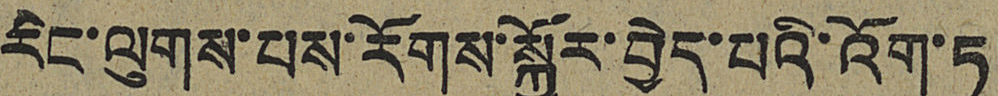རིང་ལུས་པས་རོགས་སྐྱོར་བྱེད་པའི་འོག་ཏུ།
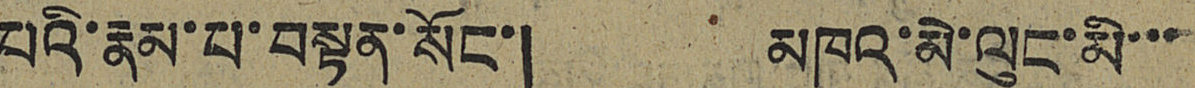པའི་རྣམ་པ་བསྟན་སོང་། མཁའ་མེ་ལུང་མི་་་
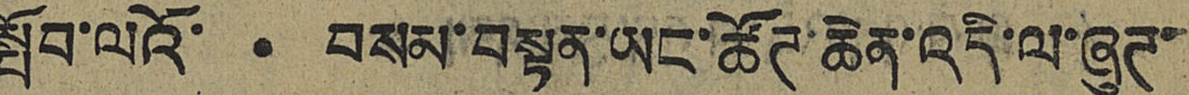སྤོབ་ལའོ་ . བསམ་བསྟན་ཡང་ཚོཊ་ཆེན་འདི་ལ་ཞུཊ་
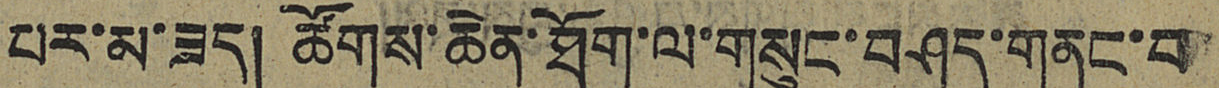པར་མ་ཟད། ཚོགས་ཆེན་ཐོག་ལ་གསུང་བཤད་གནང་བ
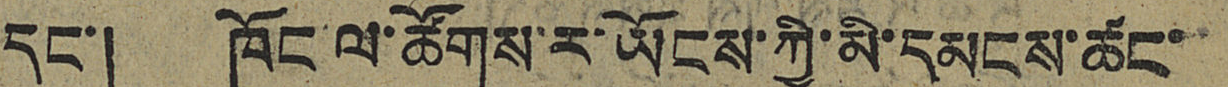དང་། ཁོང་ལ་ཚོགས་ར་ཡོངས་ཀྱི་མི་དམངས་ཚང་
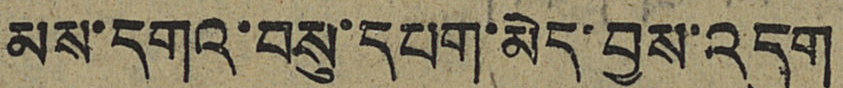མས་དགའ་བསུ་དཔག་མེད་བྱས་འདུག
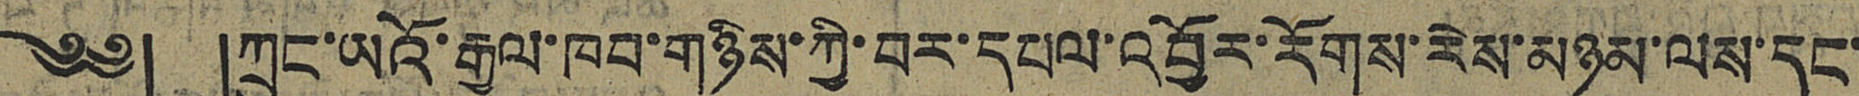༄༅། །ཀྲུང་ཡའོ་རྒྱལ་ཁབ་གཉིས་ཀྱི་བར་དཔལ་འབྱོར་རོགས་རེས་མཉམ་ལས་དང་
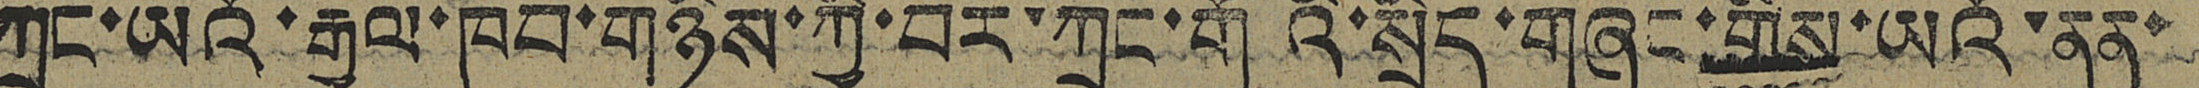ཀྲུང་ཡའོ་རྒྱལ་ཁབ་གཉིས་ཀྱི་བར་ཀྲུང་གོའི་སྲིད་གཞུང་གིས་ཡའོ་ནན་
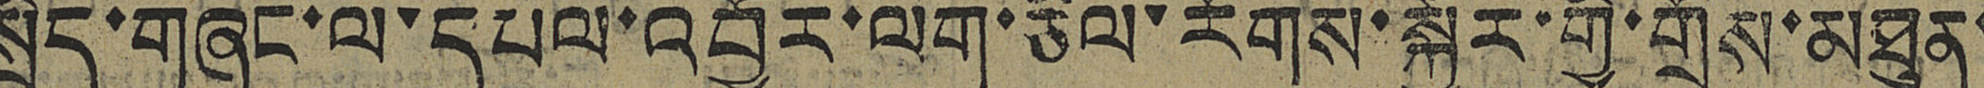སྲིད་གཞུང་ལ་དཔལ་འབྱོར་ལག་རྩལ་རོགས་སྐྱོར་གྱི་གྲོས་མཐུན་
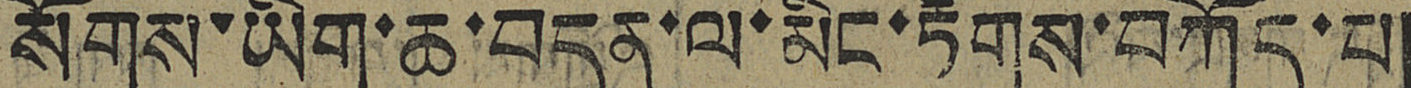སོགས་ཡིག་ཆ་བདུན་ལ་མིང་རྟགས་བཀོད་པ།
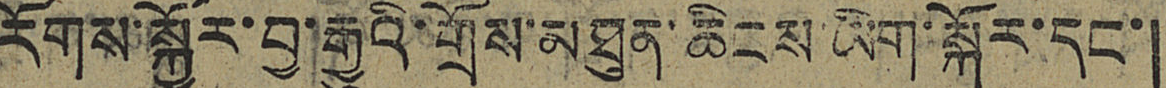རོགས་སྐྱོར་བྱ་རྒྱུའི་གྲོས་མཐུན་ཆིངས་ཡིག་སྐོར་དང་།
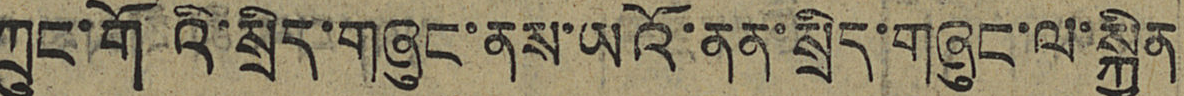ཀྲུང་གོའི་སྲིད་གཞུང་ནས་ཡའོ་ནན་སྲིད་གཞུང་ལ་སྐྱིན
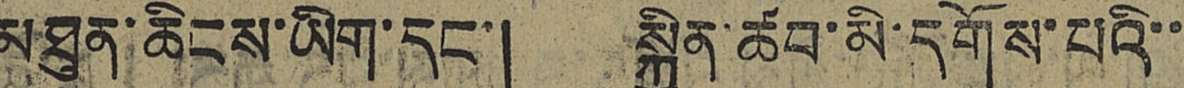མཐུན་ཆིངས་ཡིག་དང་། སྐྱིན་ཚབ་མི་དགོས་པའི་་
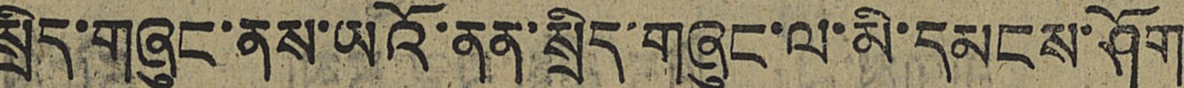སྲིད་གཞུང་ནས་ཡའོ་ནན་སྲིད་གཞུང་ལ་མི་དམངས་ཤོག
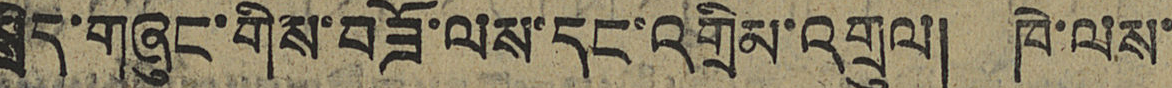སྲིད་གཞུང་གིས་བཟོ་ལས་དང་འགྲིམ་འགྲུལ། ཁེ་ལས་
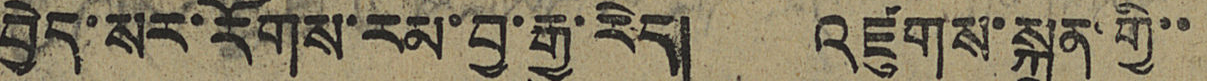བྱེད་སར་རོགས་རམ་བྱ་རྒྱུ་རེད། འཛུགས་སྐྲུན་གྱི་་
